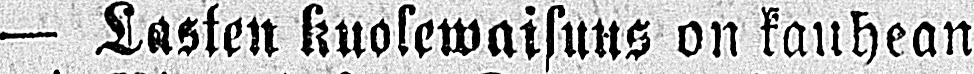— Lasten kuolewaisuus on kauhean
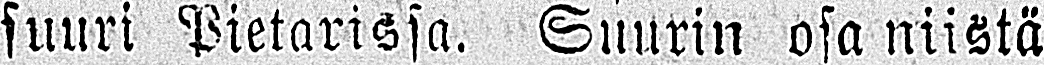suuri Pietarissa. Suurin osa niistä
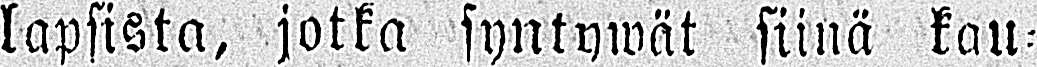lapsista, jotka syntywät siinä kau-
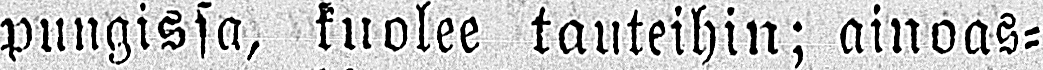pungissa, kuolee tauteihin; ainoas-
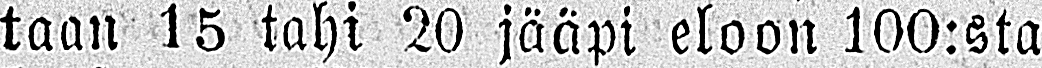taan 15 tahi 20 jääpi eloon 100:sta
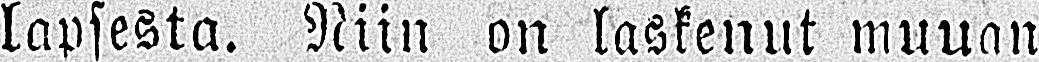lapsesta. Niin on laskenut muuan
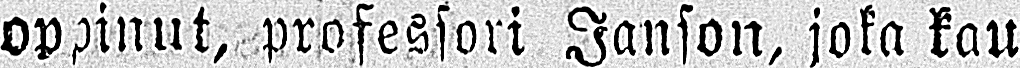oppinut, professori Janson, joka kau
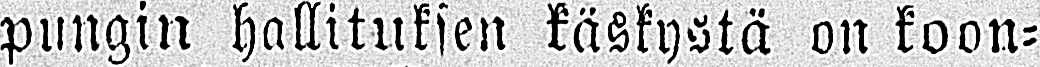pungin hallituksen käskystä on koon-
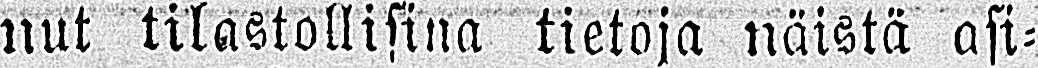nut tilastollisina tietoja näistä asi-
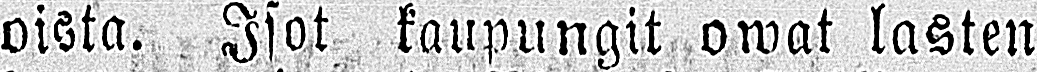oista. Isot kaupungit owat lasten
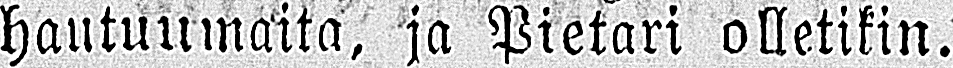hautuumaita, ja Pietari olletikin.
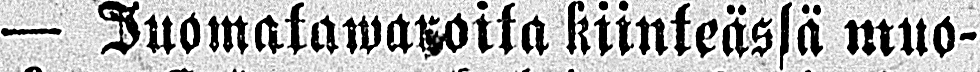— Juomatawaroita kiinteässä muo-
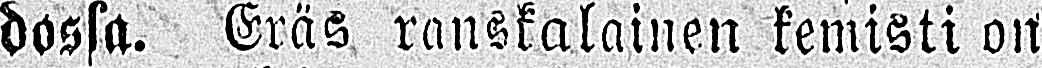dossa. Eräs ranskalainen kemisti on
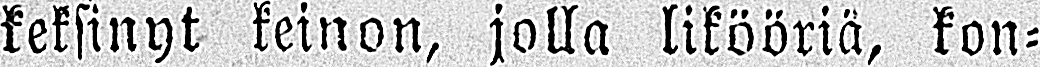keksinyt keinon, jolla likööriä, kon-
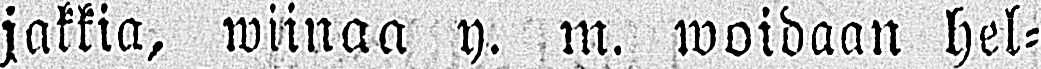jakkia, wiinaa y. m. woidaan hel-
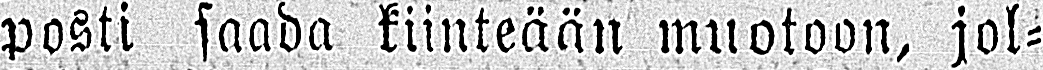posti saada kiinteään muotoon, jol-
